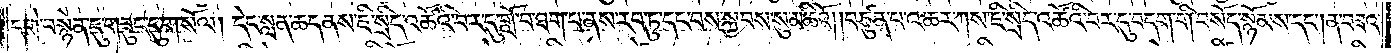དགེ་བསྙེན་དུ་གཟུང་དུ་གསོལ། དེང་སླན་ཆད་ནས་ཇི་སྲིད་འཚོའི་བར་དུ་གློ་བ་ཐག་པ་ནས་རབ་ཏུ་དང་བས་སྐྱབས་སུ་མཆིའོ། །བཙུན་པ་འཆར་ཀས་ཇི་སྲིད་འཚོའི་བར་དུ་བདག་གི་བསོད་སྙོམས་དང༌། ན་བཟའ་
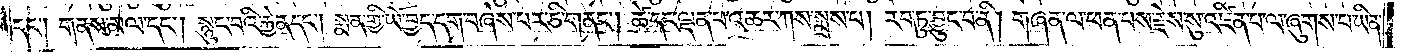དང༌། གནས་མལ་དང༌། སྙུང་བའི་རྐྱེན་དང༌། སྨན་གྱི་ཡོ་བྱད་དག་བཞེས་པར་ཅི་གནང༌། ཚེ་དང་ལྡན་པ་འཆར་ཀས་སྨྲས་པ། རབ་ཏུ་བྱུང་བ་ནི། གཞན་ལ་ཕན་པས་རྗེས་སུ་འཛིན་པ་ལ་ཞུགས་པ་ཡིན་
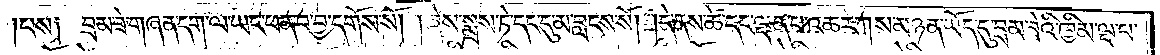པས། བྲམ་ཟེ་གཞན་དག་ལ་ཡང་ཕན་པ་བྱ་དགོས་སོ། །ཞེས་སྨྲས་ཏེ་དང་དུ་མ་བླངས་སོ། །དེ་ནས་ཚེ་དང་ལྡན་པ་འཆར་ཀས་མཉན་ཡོད་དུ་བྲམ་ཟེའི་ཁྱིམ་ལྔ་པ་
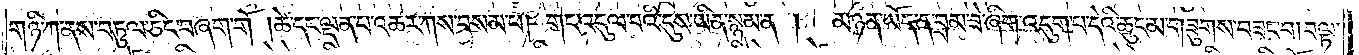གཉི་ཀ་ནས་བཏུལ་ཅིང་བཞག་གོ །ཚེ་དང་ལྡན་པ་འཆར་ཀས་བསམ་པ། གང་འདུལ་བའི་དུས་ཡིན་སྙམ་ན། མཉན་ཡོད་ན་བྲམ་ཟེ་ཞིག་འདུག་པ་དེའི་ཆུང་མ་གཟུགས་བཟང་བ། བལྟ་
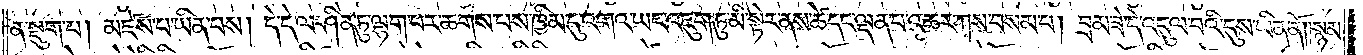ན་སྡུག་པ། མཛེས་པ་ཡིན་པས། དེ་དེ་ལ་ཤིན་ཏུ་ལྷག་པར་ཆགས་པས་ཁྱིམ་དུ་འགའ་ཡང་འཇུག་ཏུ་མི་སྟེར་ནས་ཚེ་དང་ལྡན་པ་འཆར་ཀས་བསམ་པ། བྲམ་ཟེ་དེ་འདུལ་བའི་དུས་ཡིན་ནོ། །སྙམ་
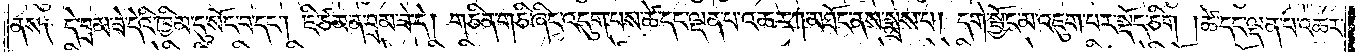ནས༑ དེ་བྲམ་ཟེ་དེའི་ཁྱིམ་དུ་སོང་བ་དང༌། ཇི་ཙམ་ན་བྲམ་ཟེ་དེ། གཅིན་གཅི་ཞིང་འདུག་པས་ཚེ་དང་ལྡན་པ་འཆར་ཀ་མཐོང་ནས་སྨྲས་པ། དགེ་སྦྱོང་མ་འཇུག་པར་སྡོད་ཅིག །ཚེ་དང་ལྡན་པ་འཆར་
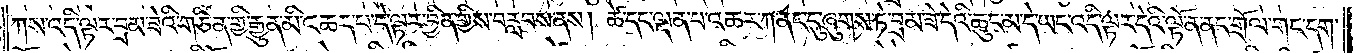ཀས་འདི་ལྟར་བྲམ་ཟེའི་གཅིན་གྱི་རྒྱུན་མི་འཆད་པ་དེ་ལྟར་བྱིན་གྱིས་བརླབས་ནས། ཚེ་དང་ལྡན་པ་འཆར་ཀ་ནང་དུ་ཞུགས་ཏེ་བྲམ་ཟེ་དེའི་ཆུང་མ་དེ་ཡང་འདི་ལྟར་དེའི་ལྟོ་ན་ནང་གྲོལ་གང་དག་
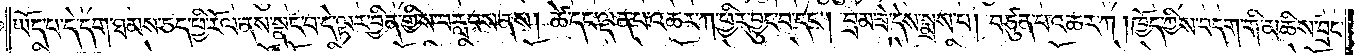ཡོད་པ་དེ་དག་ཐམས་ཅད་ཕྱི་རོལ་ནས་སྣང་བ་དེ་ལྟར་བྱིན་གྱིས་བརླབས་ནས། ཚེ་དང་ལྡན་པ་འཆར་ཀ་ཕྱིར་བྱུང་བ་དང༌། བྲམ་ཟེ་དེས་སྨྲས་པ། བཙུན་པ་འཆར་ཀ །ཁྱོད་ཀྱིས་བདག་གི་མཆིས་བྲང་
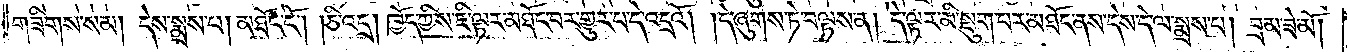གཟིགས་སམ། དེས་སྨྲས་པ། མཐོང་ངོ༌། །ཅི་འདྲ། ཁྱོད་ཀྱིས་ཇི་ལྟར་མཐོང་བར་གྱུར་པ་དེ་འདྲའོ། །དེ་ཞུགས་ཏེ་བལྟས་ན། དེ་ལྟར་མི་སྡུག་པར་མཐོང་ནས་དེས་དེ་ལ་སྨྲས་པ། བྲམ་ཟེ་མོ།
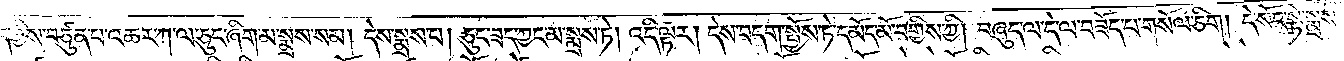ཁྱོད་ཀྱིས་བཙུན་པ་འཆར་ཀ་ལ་ཅུང་ཞིག་མ་སྨྲས་སམ། དེས་སྨྲས་པ། ཅུང་ཟད་ཀྱང་མ་སྨྲས་ཏེ། འདི་ལྟར། དེས་བདག་སྤྱོས་ཏེ་དམོད་མོ་བགྱིས་ཀྱི། བཞུད་ལ་དེ་ལ་བཟོད་པ་གསོལ་ཅིག །དེ་སོང་སྟེ་སྨྲས་
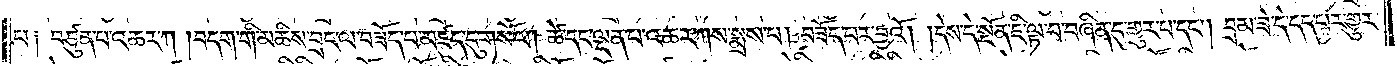པ༑ བཙུན་པ་འཆར་ཀ །བདག་གི་མཆིས་བྲང་ལ་བཟོད་པ་མཛད་དུ་གསོལ། ཚེ་དང་ལྡན་པ་འཆར་ཀས་སྨྲས་པ། བཟོད་པར་བྱའོ། །དེས་དེ་སྔོན་ཇི་ལྟ་བ་བཞིན་དུ་གྱུར་པ་དང༌། བྲམ་ཟེ་དེ་དད་པར་གྱུར་
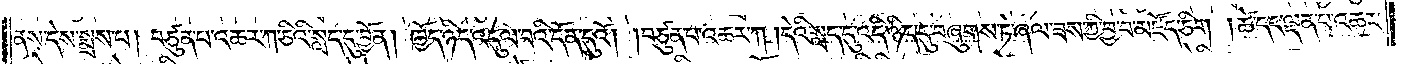ནས་དེས་སྨྲས་པ། བཙུན་པ་འཆར་ཀ་ཅིའི་སླད་དུ་བྱོན། ཁྱོད་ཉིད་འདུལ་བའི་དོན་དུའོ། །བཙུན་པ་འཆར་ཀ །དེའི་སླད་དུ་འདི་ཉིད་དུ་བཞུགས་ཏེ་ཞལ་ཟས་ཀྱི་བྱ་བ་མཛོད་ཅིག །ཚེ་དང་ལྡན་པ་འཆར་
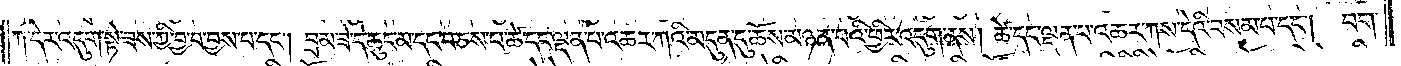ཀ་དེར་འདུག་སྟེ་ཟས་ཀྱི་བྱ་བ་བྱས་པ་དང༌། བྲམ་ཟེ་དེ་ཆུང་མ་དང་བཅས་པ་ཚེ་དང་ལྡན་པ་འཆར་ཀའི་མདུན་དུ་ཆོས་མཉན་པའི་ཕྱིར་འདུག་ནས། ཚེ་དང་ལྡན་པ་འཆར་ཀས་དེའི་བསམ་པ་དང༌།  བག་
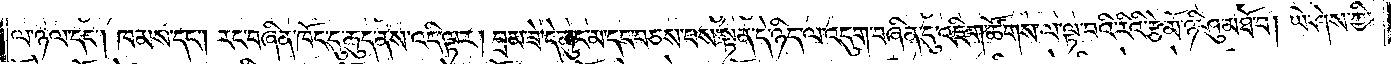ལ་ཉལ་དང༌། ཁམས་དང༌། རང་བཞིན་ཁོང་དུ་ཆུད་ནས་འདི་ལྟར། བྲམ་ཟེ་དེ་ཆུང་མ་དང་བཅས་པས་སྟན་དེ་ཉིད་ལ་འདུག་བཞིན་དུ་འཇིག་ཚོགས་ལ་ལྟ་བའི་རིའི་རྩེ་མོ་ཉི་ཤུ་མཐོ་བ། ཡེ་ཤེས་ཀྱི་
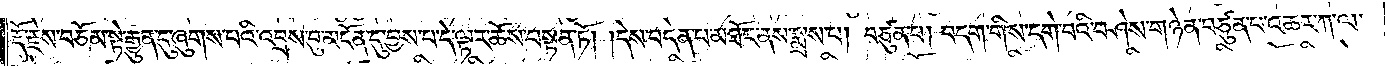རྡོ་རྗེས་བཅོམ་སྟེ་རྒྱུན་དུ་ཞུགས་པའི་འབྲས་བུ་མངོན་དུ་བྱས་པ་དེ་ལྟར་ཆོས་བསྟན་ཏོ། །དེས་བདེན་པ་མཐོང་ནས་སྨྲས་པ། བཙུན་པ། བདག་གིས་དགེ་བའི་བཤེས་གཉེན་བཙུན་པ་འཆར་ཀ་ལ་
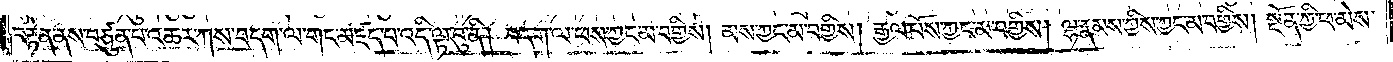བརྟེན་ནས་བཙུན་པ་འཆར་ཀས་བདག་ལ་གང་མཛད་པ་འདི་ལྟ་བུ་ནི། བདག་ལ་ཕས་ཀྱང་མ་བགྱིས། མས་ཀྱང་མ་བགྱིས། རྒྱལ་པོས་ཀྱང་མ་བགྱིས། ལྷ་རྣམས་ཀྱིས་ཀྱང་མ་བགྱིས། སྔོན་གྱི་ཕ་མེས་
